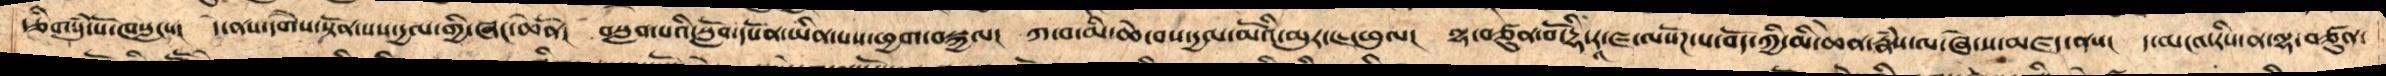རྩིགསུཾ་པོ་ཁསླངས།   དེ་ནས་དགཻས་སྟོན་པས་དྱལ་གྱི་ཞང་ཆེནོ།   བསླབ་པའི་སློབ་དཔོན་ཡིན་པས་ཕྱག་བསྐྱལ།  ཀ་བ་མི་ཆེ་བས་དྱལ་མོའི་མུར་ཇ་ཕུལ།   ལྷ་བཙུན་བོ་དྷི་རཱ་ཛ་ལསོཌ་པ་བོད་ཀྱི་མི་ཆེན་རྣཾས་ལ་ཞེ་ས་མཛད་ནས།   ད་མངའ་རིས་ན་ལྷ་བཙུན་
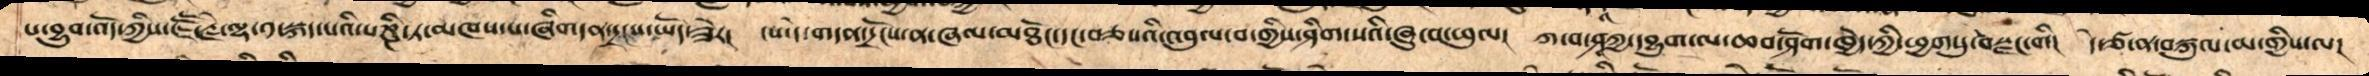པ་བྱུབ་འོད་ཀྱིས་ཇཽ་རྗེ་ལྷ་༡སྐད་པའི་པཎྜི་ཏ་མཁས་པ་ཞིགདན་དྲངས་ཡོད་ཟེར།   ངས་དེ་གདན་དྲོངས་ན་ཞལ་མཐོང་དང་བཅས་པའི་དབུལ་བ་གྱིས་ཤིག་སའི་ཞུ་བ་ཕུལ།   ཀ་བ་ཤཱཀྱ་དབྱུག་ལ་ཆབ་ཤོག་ཁྱེད་ཀྱི་ཕྱག་དུ་བསྫང་གི།   དེ་ཙ་ན་བསྐུལ་མ་གྱིས་ལ་
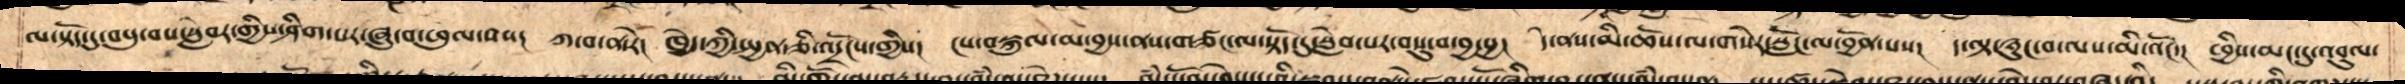ལ་སྟོད་དུ་བསུ་བས་སླེབར་གྱིས་ཤིག་པར་ཞུ་བ་ཕུལ་བས།   ཀ་བ་ན་རེ།   ཁྱེད་ཀྱི་སྤྱན་ཅི་འདྲོངས་གྱིས།    ངས་བསྐུལ་མ་བྱས་ནས་གཙང་ལ་སྟོད་དུ་སླེབ་པར་བསུ་བ་བྱ་སྱ།   དེ་ནས་མི་ཆོས་ལ་གསེར་སློང་ལ་བྱོན་པས།   ད་ལྟ་ཉུང་བ་ལས་མི་འོང་།   ཕྱིས་མང་དུ་འབུལ་
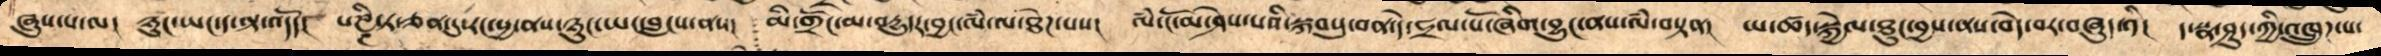ཞུས་པ་ལ།    ཉུང་ཡང་ད་ལྟ་འདོད།   པཎྜི་ཏ་ཅན་དུ་རང་སྱ་ནས་ཉུང་ཡང་བླངས་ནས།    མི་གྲོང་མ་བདྱུདར་བྱང་ལཾ་ལ་ཐེཌ་པས།  ལཾ་ངོ་མ་ཤེས་པའི་སྐབསུ་བན་དེ་ཧྲལ་པོ་ཞིག་བྱུང་ནས་ལཾ་བསྟན།    ཡ་ཚད་སྐྱེལ་ཐུང་བྱས་ནས་བདེ་བར་བཞུད༡ི།   ད་སྣ་ཤུད་ཀྱི་འཁྲུཌ་པ་
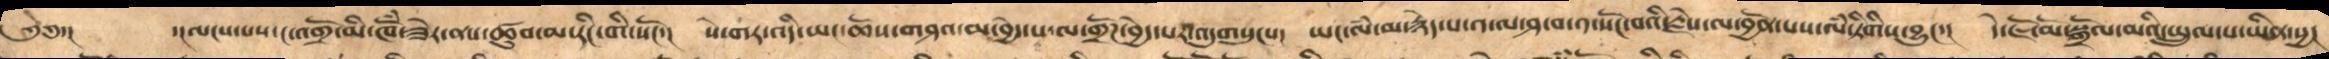༄༅་།   དངལངས་པས་ང་འགྲོ་མི་ཁོཾ་ཟེར་ནས་ཚུབ་མ་རིང་གི་སོང་།   སེ་གར་འདི་ཡང་ཆོས་གཤའ་མ་བྱེད་པ་ལ་གྲོཌ་བྱེད་པར་འདུགསུངས།    ཡང་ལཾ་མ་རྙེད་པ་༡་ལ་ཤ་བ་༡་སོང་བའི་རྗེས་ལ་བྱོན་པས་ལཾ་རིགིསབྱུང་།    དེ་ཇོ་མོ་སྒྲོལ་མའི་སྤྲུལ་པ་ཡིན་སྱ།
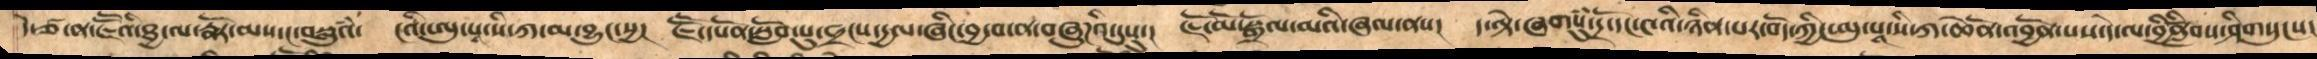དེ་ཙ་ན་ཇཽའི་ཐྱ་ལ་རྣོར་མས་ང་བསླུའཾ་   ངའི་ཨུ་པཱ་སི་ཀ་མ་བྱུང་སྱ།   ཇཽ་དཔོན་སློབ་སུ་བྲངས་དྱལ་ཞིང་བྱ་བ་ན་བཞུཌའི་དུསུ་།   ཇོ་མོ་སྒྲོལ་མའི་ཞལ་ནས།    ད་ལྟེ་ཞགསུཾ་དྲོ་དང་༤འི་ཉིན་པར་བོད་ཀྱི་ཨུ་པཱ་སི་ཀ་ཆེནོ་འབྱོན་པས་དེ་ལ་བྱིནླིོབས་ཤིགསུངས་
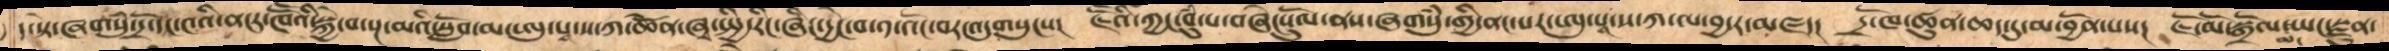ད་སྟེ་ཞགསུཾ་དྲོ་དང་༤འི་ནངར་ཁཽའི་སྐྱེ་བ་སྔ་མའི་སློབ་མ་ཨུ་པཱ་ས་ཀ་ཆེནོ་ཞྭ་སྤྱི་རིང་ཞིང་དྱངེ་བ་༡་འོང་བར་འདུགསུངས།     ཇཽའི་ཀྱང་བུཾ་པ་བཞེངསུལོ་ནས་ཞགསུཾ་གྱི་ནང་པར་ཨུ་པཱ་ས་ཀ་ལ་བྱ་ར་མཛད།   དྲོ་ཁ་ཚུན་ཆད་དུ་མ་བྱོན་པས།   ཇོ་མོ་སྒྲོལ་མ་ཡང་སྫུན་
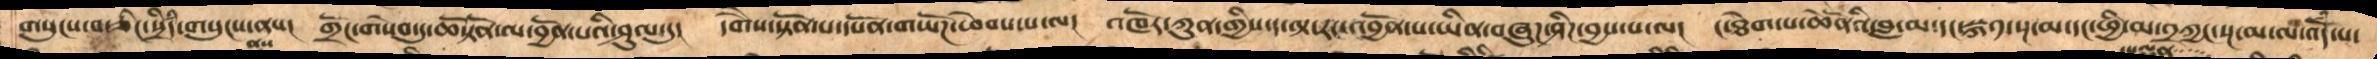གསུངས་བ་ཅིང་སྲིདཾ་གསུངས་ནས།   གྲོང་གསེབ་དུ་ཆོསྟོན་ལ་བྱོན་པའི་ཤུལ་དུ།   དགཻས་སྟོན་པ་དཔོན་གཡོཌ་ཕེབས་པ་ལ།    འཁོར་ཀུན་གྱིས་ད་ལྟ་རང་འབྱོན་པ་ཡིན་བཞུཌ་ཤིང་བྱས་པ་ལ།   ང་ཐེག་པ་ཆེནོའི་བླ་མ་དང་སྐ༡་སྔ་མ་དང་ཕྱི་མ་༢ཀྱང་སྔ་མ་ལ་འདོཾ་པ་
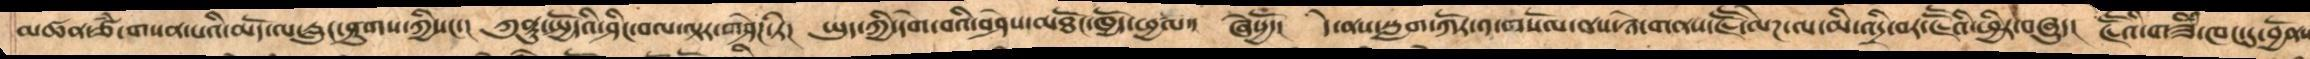མཚན་ཙཾ་གསན་པའི་མོད་ལ་རླུང་ཤུགས་ཀྱིས།     ཀུནྟུ་སྤྱོདའི་ཤིང་བལ་ལྟར་གཤེཌ་ཏེ།   ཡུད་ཀྱི་དགེ་བའི་བཤེས་མཐོང་ཁྱོད་ཕྱཚལ།   ཞེསྱོཾ་།    དེ་ནས་སླག་ཀོར་༡་གསོལ་ནས་ཉེ་གནས་ཇཽ་ལེཌ་ལ་མི་འདྲི་བར་ཇཽའི་ཕྱིར་བཞུད།    ཇོཽའི་གཟིཾ་ཁང་དུ་བྱོནས་
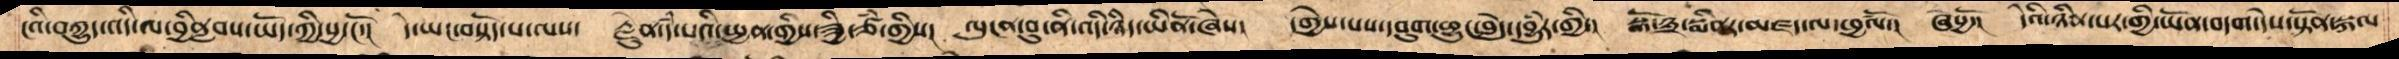ངའི་བཀྱུད་འདི་ལ་བྱིནླབས་ཡོད་ཀྱི་སྱ་ངོ་།     དེ་ཡང་བསྟོད་པ་ལས།   རྗེུན་དཾ་པའི་སྤྱན་གྱིས་ཟྱི་ཙཾ་གྱིས།   ལུངན་བུ་ནི་འདི་ཉིད་ཡིནོ་ཞེས།  དགྱེས་པས་དབུག་ཕྱུང་བླེད་དབྱུཾར་གྱི་།   སྒོ་༣་སྨིནར་མཛད་ལ་ཕྱཚལོ་།   ཞེསྱོ་།   དེའི་ཉིན་པར་གྱི་ཡོན་བདག་དེས་སྟོན་སྐལ
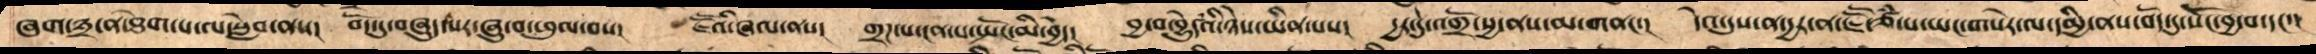ཞག་༣་ན་ཐེག་པ་ལ་སླེབ་ནས།   བོད་དུ་བཞུད་པར་ཞུ་བ་ཕུལ་བས།   ཇཽའི་ཞལ་ནས།   གྲཌ་པ་ངན་པ་སྤོང་མི་བྱེད།   བྱ་བ་བྱེུདཾའི་ཉེས་ཡིན་པས།   དྱར་དུ་འགྲོ་སྱ་ནས་མ་གནང་།   དེའ་དུས་ན་དྱར་ན་ཇཽ་ཙཾ་པ་ཡང་གསེར་ལ་དམྱི་ནས་བོད་དུ་སོང་བྱ་བ་དང་།
